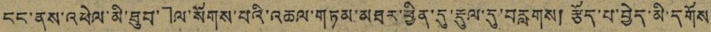ངང་ནས་འཕེལ་མི་ཐུབ་」ལ་སོགས་པའི་འཆལ་གཏམ་མཐར་ཕྱིན་དུ་རྡུལ་དུ་བརླགས། རྩོད་པ་བྱེད་མི་དགོས་
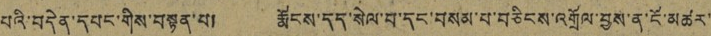པའི་བདེན་དཔང་གིས་བསྟན་པ། རྨོངས་དད་སེལ་བ་དནག་བསམ་པ་བཅིངས་འགྲོལ་བྱས་ན་ངོ་མཚར་
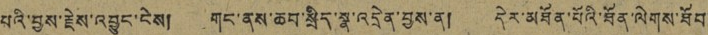པའི་བྱས་རྗེས་འབྱུང་ངེས། གང་ནས་ཆབ་སྲིད་སྣ་འདྲེན་བྱས་ན། དེར་མཐོན་པོའི་ཐོན་ལེགས་ཐོབ་
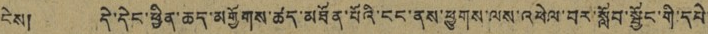ངེས། དེ་དེང་ཕྱིན་ཆད་མགྱོགས་ཚད་མཐོན་པོའི་ངང་ནས་ཕྱུགས་ལས་འཕེལ་བར་སློབ་སྦྱོང་གི་དཔེ་
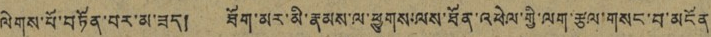ལེགས་པོ་བཏོན་པར་མ་ཟད། ཐོག་མར་མི་རྣམས་ལ་ཕྱུགས་ལས་ཐོན་འཕེལ་གྱི་ལག་རྩལ་གསང་བ་མངོན
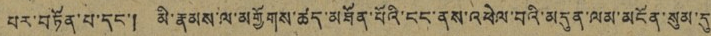པར་བཏོན་པ་དང་། མི་རྣམས་ལ་མགྱོགས་ཚད་མཐོན་པོའི་ངང་ནས་འཕེལ་བའི་མདུན་ལམ་མངོན་སུམ་དུ་
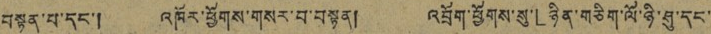བསྟན་པ་དང་། འཁོར་ཕྱོགས་གསར་བ་བསྟན། འབྲོག་ཕྱོགས་སུ་「ཉིན་གཅིག་ལོ་ཉི་ཤུ་དང་
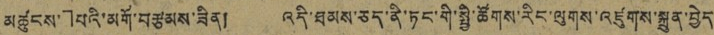མཚུངས་」པའི་མགོ་བརྩམས་ཟིན། འདི་ཐམས་ཅད་ནི་ཏང་གི་སྤྱི་ཚོགས་རིང་ལུགས་འཛུགས་སྐྲུན་བྱེད
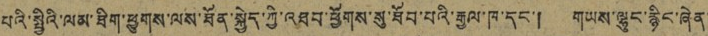པའི་སྤྱིའི་ལམ་ཐིན་ཕྱུགས་ལས་ཐོན་སྐྱེད་ཀྱི་འཐབ་ཕྱོགས་སུ་ཐོབ་པའི་རྒྱལ་ཁ་དང་། གཡས་ལྷུང་རྙིང་ཞེན་
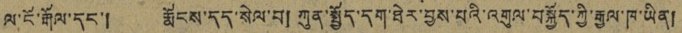ལ་ངོ་རྒོལ་དང་། རྨོངས་དད་སེལ་བ། ཀུན་སྤྱོད་དག་ཐེར་བྱས་པའི་འགུལ་བསྐྱོད་ཀྱི་རྒྱལ་ཁ་ཡིན།
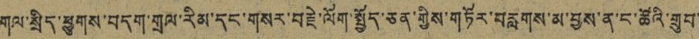གལ་སྲིད་ཕྱུགས་བདག་གྲལ་རིམ་དང་གསར་བརྗེ་ལོག་སྤྱོད་ཅན་གྱིས་གཏོར་བརླགས་མ་བྱས་ན་ང་ཚོའི་གྲུབ་
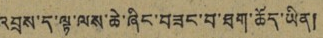འབྲས་ད་ལྟ་ལས་ཆེ་ཞིང་བཟང་བ་ཐག་ཆོད་ཡིན།
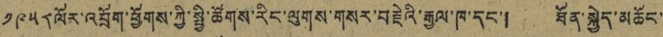༡༩༥༨ ལོར་འབྲོག་ཕྱོགས་ཀྱི་སྤྱི་ཚོགས་རིང་ལུགས་གསར་བརྗེའི་རྒྱལ་ཁ་དང་། ཐོན་སྐྱེད་མཆོང་
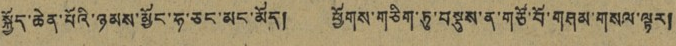སྐྱོད་ཆེན་པོའི་ཉམས་མྱོང་ཧ་ཅང་མང་མོད། ཕྱོགས་གཅིག་ཏུ་བསྡུས་ན་གཙོ་བོ་གཤམ་གསལ་ལྟར།
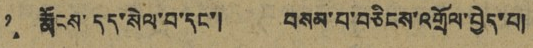༡ རྨོངས་དད་སེལ་བ་དང་། བསམ་པ་བཅིངས་འགྲོལ་བྱེད་པ།
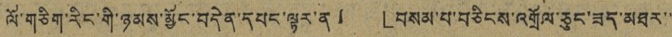ལོ་གཅིག་རིང་གི་ཉམས་མྱོང་བདེན་དཔང་ལྟར་ན། 「བསམ་པ་བཅིངས་འགྲོལ་ཅུང་ཟད་མཐར་་
